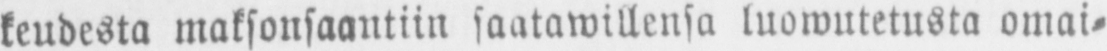keudesta maksonsaantiin saatawillensa luowutetusta omai-
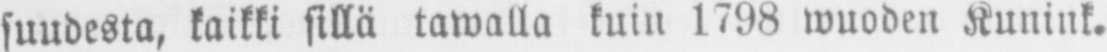suudesta, kaikki sillä tawalla kuin 1798 wuoden Kunink.
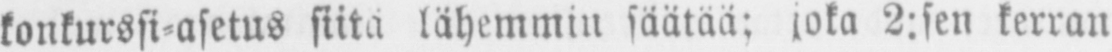konkurssi asetus siitä lähemmin säätää: joka 2:sen kerran
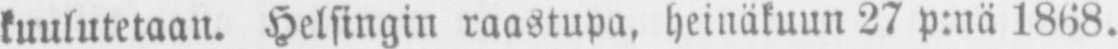kuulutetaan. Helsingin raastupa, heinäkuun 27 p:nä 1868.
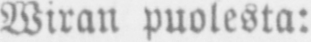Wiran puolesta:
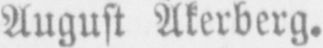August Akerberg.
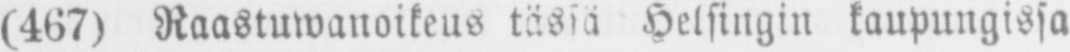(467) Raastuwanoikeus tässä Helsingin kaupungissa
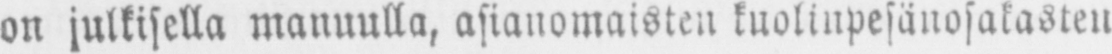on julkisella manuulla, asianomaisten kuolinpesänosakasten
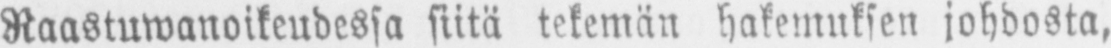Raastuwanoikeudessa siitä tekemän hakemuksen johdosta,
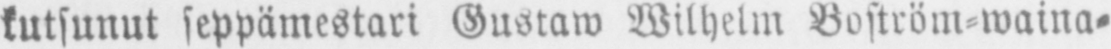kutsunut seppämestari Gustaw Wilhelm Boström-waina-
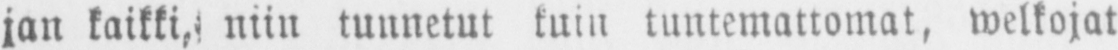jan kaikki, niin tunnetut tuin tuntemattomat, welkojat
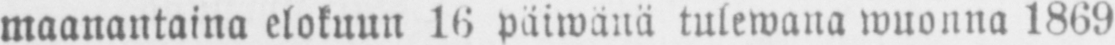maanantaina elokuun 16 päiwänä tulewana wuonna 1869
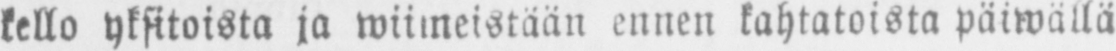kello yksitoista ja wiimeistään ennen kahtatoista päiwällä
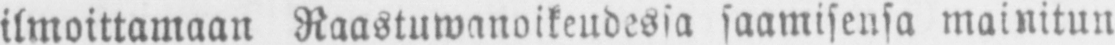ilmoittamaan Raastuwanoikeudessa saamisensa mainitun
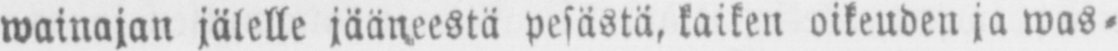wainajan jälelle jääneestä pesästä, kaiken oikeuden ja was-
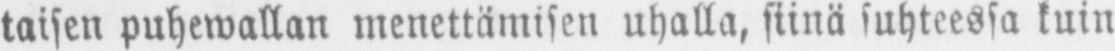taisen puhewallan menettämisen uhalla, siinä suhteessa kuin
